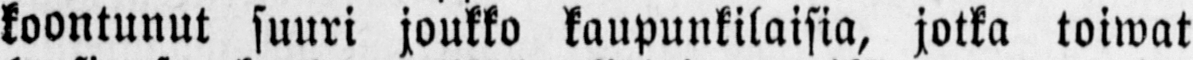koontunut suuri joukko kaupunkilaisia, jotka toiwat
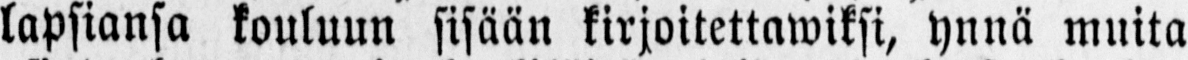lapsiansa kouluun sisään kirjoitettawiksi, ynnä muita
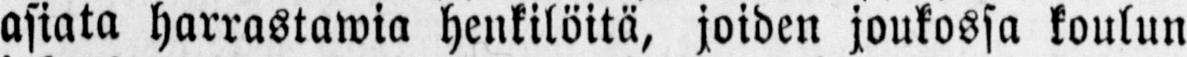asiata harrastawia henkilöitä, joiden joukossa koulun
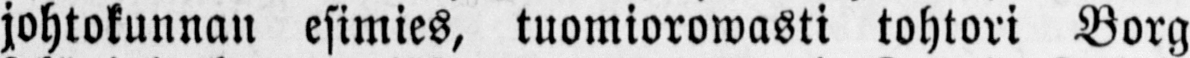johtokunnan esimies, tuomiorowasti tohtori Borg
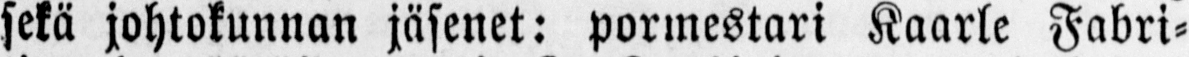sekä johtokunnan jäsenet: pormestari Kaarle Fabri-
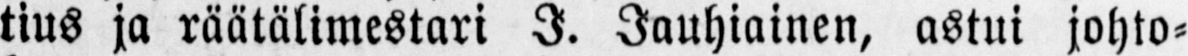tius ja räätälimestari I. Jauhiainen, astui johto-
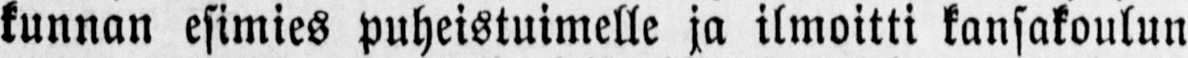kunnan esimies puheistuimelle ja ilmoitti kansakoulun
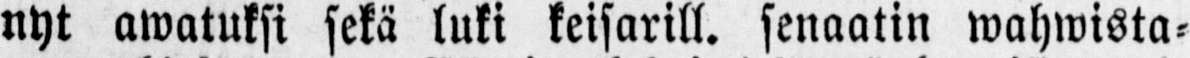nyt awatuksi sekä luki keisarill. senaatin wahwista-
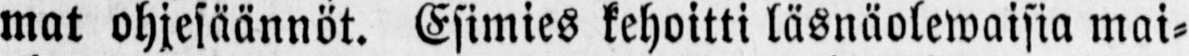mat ohjesäännöt. Esimies kehoitti läsnäolewaisia mai-
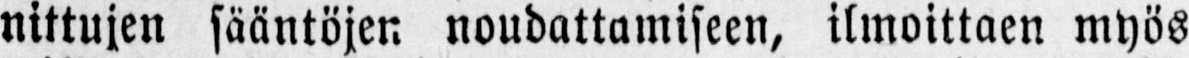nittujen sääntöjen noudattamiseen, ilmoittaen myös
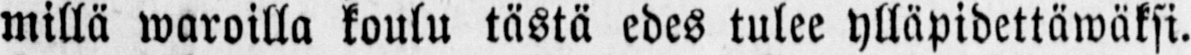millä waroilla koulu tästä edes tulee ylläpidettäwäksi.
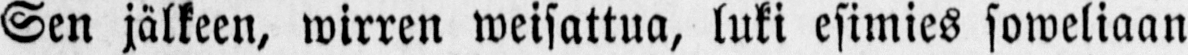Sen jälkeen, wirren weisattua, luki esimies soweliaan
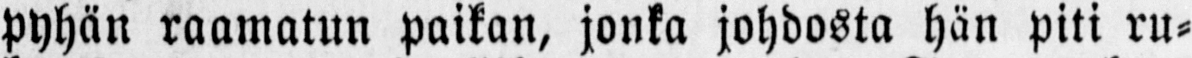pyhän raamatun paikan, jonka johdosta hän piti ru-
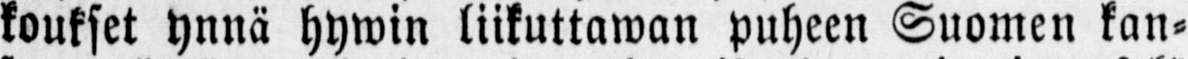koukset ynnä hywin liikuttawan puheen Suomen kan-
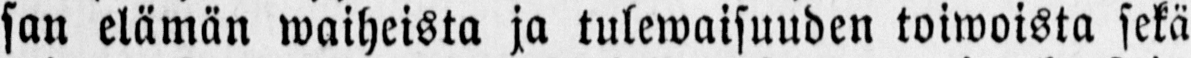san elämän waiheista ja tulewaisuuden toiwoista sekä
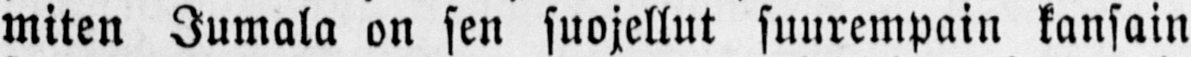miten Jumala on sen suojellut suurempain kansain
